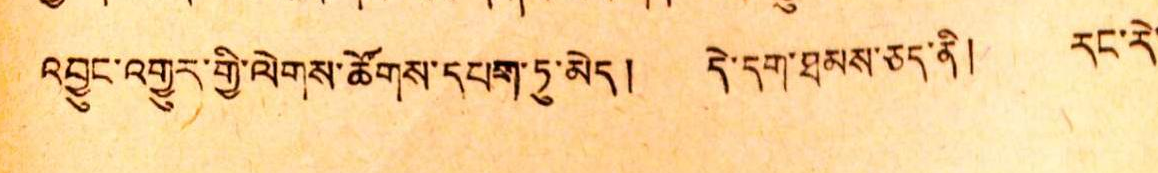འབྱུང་འགྱུར་གྱི་ལེགས་ཚོགས་དཔག་ཏུ་མེད། དེ་དག་ཐམས་ཤད་ནི། རང་རེ་
